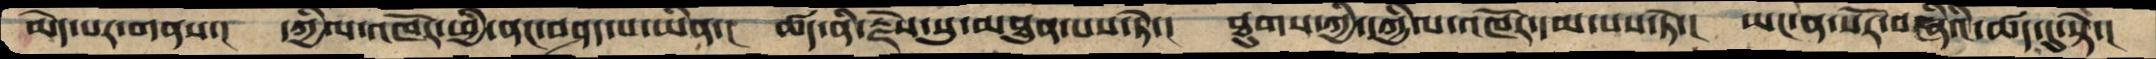མེད་པར་གནས་།   དཀྱིལ་འཁོར་ཕྱི་ནང་བཤད་པ་ཡིན་།  ཚད་ནི་རྗེས་སུ་མཐུན་པས་ཏེ་།  ཐུགས་ཀྱི་དཀྱིལ་འཁོར་དམ་པས་ཏེ་།  ཡང་ན་སོར་བཞིའི་ཚད་དུ་སྟེ་།
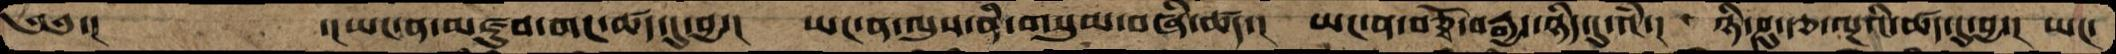༄༅་།        ་།ཡང་ན་མཛུབ་གང་ཚད་དུ་བྱ་།    ཡང་ན་ལུས་ནི་གསུམ་བཞི་ཚད་།   ཡང་ན་བཅྭོ་བརྒྱད་ཉིད་དུ་འཾ་།  ཉི་ཤུ་རྩ་ལྔའི་ཚད་དུ་བྱ་།  ཡང་
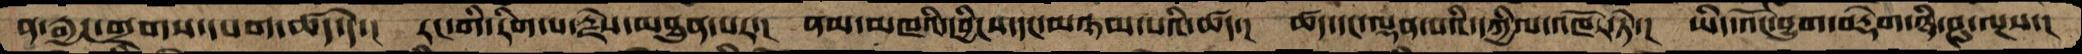ན་རྒྱང་གྲགས་དཔག་ཚད་དེ་།  རང་གི་རིག་པ་རྗེས་མཐུན་པར་།  ནམ་མཁའི་དབྱིངས་དང་མཉམ་པའི་ཚད་།  ཚད་དང་ལྡན་པའི་དཀྱིལ་འཁོར་ཏེ་།  ཡིད་འོང་བྱུག་བརྡེག་ཉི་ཤུ་ལྔས་།
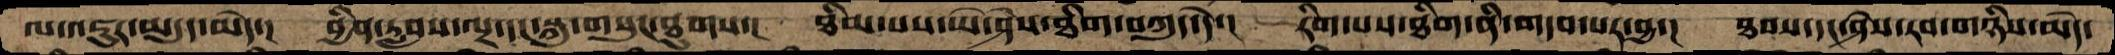ལ་འཇུར་མདུད་མེད་།  བྱིན་རླབས་ལྔ་དང་སྐུ་གསུང་ཐུགས་།  ཐིམ་པས་ཡེ་ཤེས་ཐིག་བཀུད་དེ་།  རིག་པས་ཐིག་ནི་གདབ་པར་བྱ་།  ཐབས་དང་ཤེས་རབ་གཉིས་མེད་
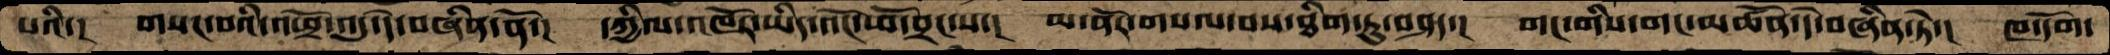པའི་།  གསང་བའི་འཕྲོ་འདུད་དེ་བཞིན་ནོ་།  དཀྱིལ་འཁོར་ཡིད་འོང་ཕོ་བྲང་ས་།  མ་ནོར་གསལ་བས་ཐིག་ཏུ་བཤད་།  གང་གིས་གང་མཚོན་དེ་བཞིན་ཏེ་།  ཁ་དོག་
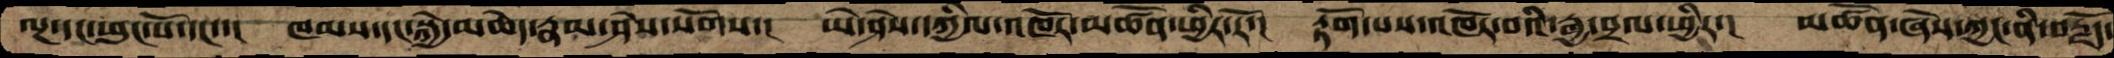ལྔ་དང་ཕུང་པོ་དང་་།  ཁམས་དང་སྐྱེ་མཆེད་རྣམ་ཤེས་སོགས་།  ཡེ་ཤེས་དཀྱིལ་འཁོར་མཚོན་ཕྱིར་རོ་།  རྟོག་པས་འཁོར་བའི་རྒྱ་བྲལ་ཕྱིར་།  མཚོན་ཞེས་ཀྱང་ནི་བརྗོད་
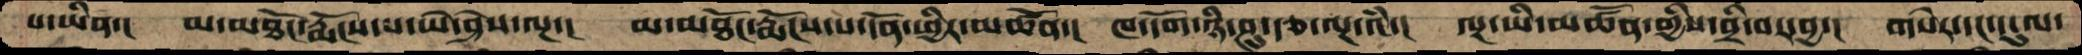པ་ཡིན་།  མ་མཐོང་རྨོངས་པ་ཡེ་ཤེས་ལྔ་།  མ་མཐོང་རྨོངས་པ་དོན་ཕྱིར་མཚོན་།  ཁ་དོག་ཉི་ཤུ་རྩ་ལྔ་འཾ་།  ལྔ་ཡི་མཚོན་གྱིས་བྲི་བར་བྱ་།  གསེར་དང་དངུལ་
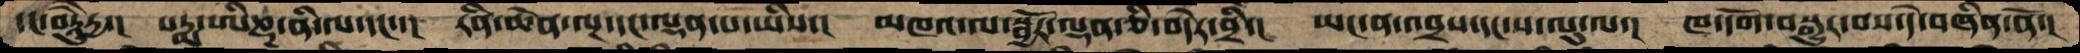དང་བཻཌཱུརྱ་།  པདྨ་ཨིཎྜ་ནི་ལ་དང་་།  རིན་ཆེན་ལྔ་དང་ལྡན་པ་ཡིས་།  མཁའ་ལ་སྦྱོར་ལྡན་ཅི་བདེར་བྲི་།  ཡང་ན་འབྲས་དང་ས་ལུ་ལ་།  ཁ་དོག་བསྒྱུར་བས་དེ་བཞིན་ནོ་།
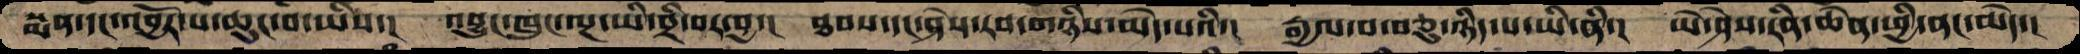སྨན་དང་འབྱོར་པ་ཆུང་བ་ཡིས་།  འབྱུང་ཁུང་ལྔ་ཡི་བྲི་བར་བྱ་།  ཐབས་དང་ཤེས་རབ་གཉིས་མེད་པའི་།  རྒྱལ་བ་བཅུ་ཉིད་པ་ཡི་ནི་།  ཡེ་ཤེས་རིན་ཆེན་ཕྱི་ནང་མེད་།
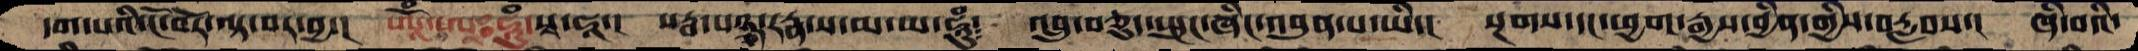དག་པའི་ངོ་བོར་ལྟ་བར་བྱ་།  ཨཱོཾ་ཨཱཿཧཱུཾ་སྭ་ཧཱ་།  སརྦ་པཉྩ་རཏྣ་ས་མ་ཡ་ཧཱུཾ༴  འབྲུ་བཅུ་སྤུང་ཞིང་འབུན་པ་ཡི་།  སྔགས་དང་ཕྱག་རྒྱས་བྱིན་གྱིས་བརླབས་།  ཞི་བའི་
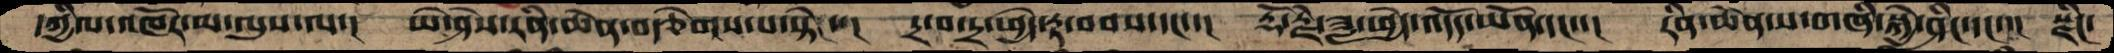དཀྱིལ་འཁོར་མ་ལུས་ལ་།  ཡེ་ཤེས་རིན་ཆེན་བརྩེགས་པ་སྟེ་།  དྲ་བ་དྲ་ཕྱེད་རྟ་བབས་དང་།  རྡོ་རྗེ་ཟླ་ཕྱེད་འདོད་ཡོན་དང་་།  རིན་ཆེན་ས་གཞི་སྐྱེ་ཤིང་དང་་།  སྫིང་
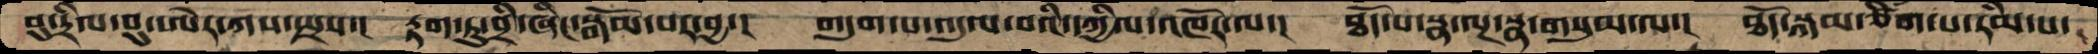བུ་དྲིལ་བུ་ཨེར་ཀས་སྤྲས་།  རྟག་ཏུ་བྲི་ཞིང་སྒོམ་པར་བྱ་།  གདུག་པ་འདུལ་བའི་དཀྱིལ་འཁོར་ལ་།  ཐོད་པ་སྣ་ལྔ་སྣ་གསུམ་ལ་།  ཐོད་སྐམ་ཙིག་པ་རིམ་པ་
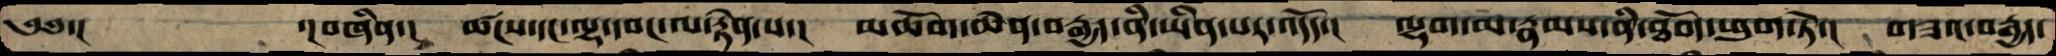༄༅་།     ་།བཞིན་།   ཚངས་དང་ལྷ་དབང་ལ་རྟེན་པ་།  མཆོག་ཆེན་བརྒྱད་ནི་ཡིན་པར་འདོད་།  ལྷག་མ་རྣམས་ནི་ཐོག་ཕུག་ཏེ་།  གཟའ་བརྒྱད་
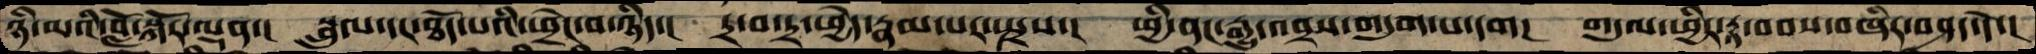ཉི་མའི་བློ་སྐོར་ལྡན་།   སྦྲུལ་དང་ཐོད་པའི་ཕྲེང་བ་ཉིད་།  དྲ་བ་དྲ་ཕྱེད་རྣམ་པར་སྤྲས་།  ཕྱི་ནང་རྒྱུ་འབྲས་གདུག་པ་དག།  གདུལ་ཕྱིར་རྟ་བབས་བཞིར་བཤད་དེ་།
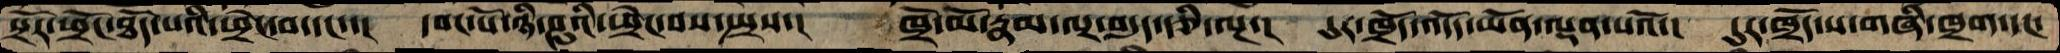སྲོར་ཕྲོང་ཐོད་པའི་ཕྲེང་བ་དང་་།  དབང་པོ་ཉི་ཤུའི་ཕྲེང་བས་སྤྲས་།  ཁྲོ་མོ་རྣམ་ལྔ་བདུད་རྩི་ལྔ་།  དུར་ཁྲོད་འདོད་ཡོན་ལྡན་པའོ་།  དུར་ཁྲོད་ས་གཞི་ཁྲག་དང་
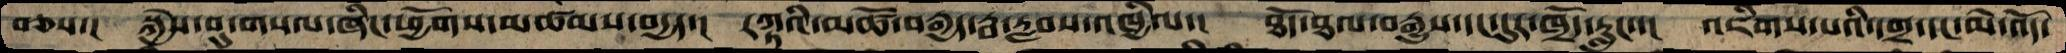བཅས་།  སྐྱེས་བུ་གསལ་ཞིང་ཕྱོགས་མཚམས་བདྱད་།  རཀྟའི་མཚོ་བརྒྱད་རྦ་རླབས་འཁྱིལ་།  ཐོད་ཐལ་བརྒྱུས་དང་དུར་ཁྲོད་རླུང་་།   འཇིགས་པའི་དགྲ་དང་མེ་འོད་
